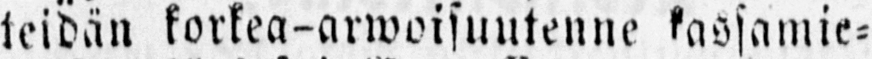teidän korkea-arwoisuutenne kassamie-
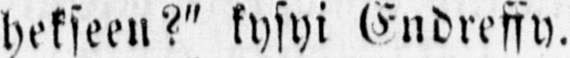hekseen?" kysyi Endreffy.
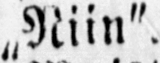„Niin".
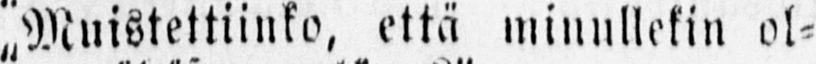„Muistettiinko, että minullekin ol-
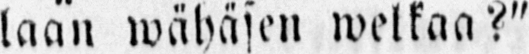laan wähäsen welkaa?"
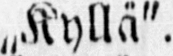„Kyllä".
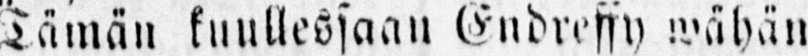Tämän kuullessaan Endreffy wähän
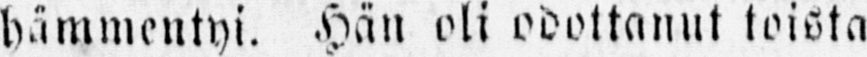hämmentyi. Hän oli odottanut toista
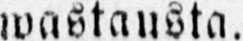wastausta.
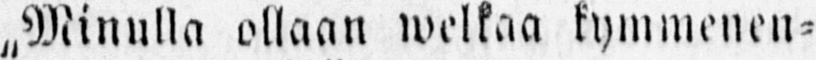„Minulla ollaan welkaa kymmenen-
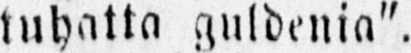tuhatta guldenia".
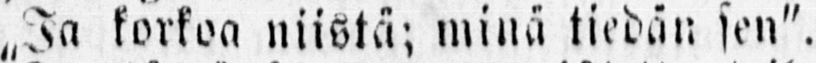„Ja korkoa niistä; minä tiedän sen".
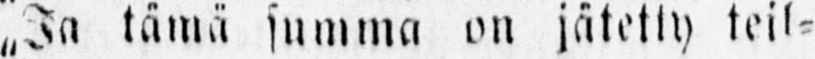„Ja tämä summa on jätetty teil-
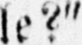le?"
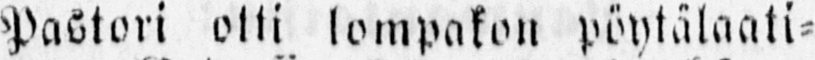Pastori otti lompakon pöytälaati-
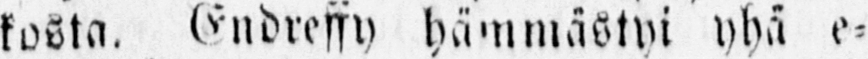kosta. Endreffy hämmästyi yhä e-
